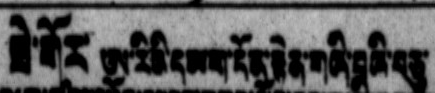ཐེ་གོར ཨ་རིའི་དམག་དོན་རྟེན་གཞི་བའི་བཅུ་
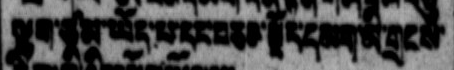ལྷག་ཙམ་ཡོད་པ་དང་བཅའ་སྡོད་དམག་མི་གྲངས་
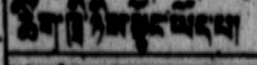ཆིག་ཁྲི་ཉིས་སྟོང་ཡོད་པ།
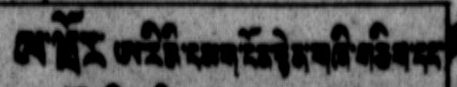ལ་ཝོར ཨ་རིའི་དམག་དོན་རྟེན་གཞི་གཅིག་དང་
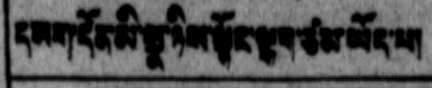དམག་དོན་མི་སྣ་ཉིས་སྟོང་ལྷག་ཙམ་ཡོད་པ།
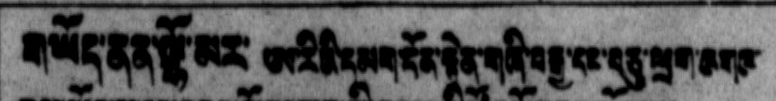གཡོད་ནན་ལྷོ་མར་ ཨ་རིའི་དམག་དོན་རྟེན་གཞི་བརྒྱ་དང་བཅུ་ཕྲག་འགའ་
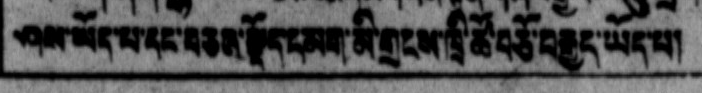ཤས་ཡོད་པ་དང་བཅའ་སྡོད་དམག་མི་གྲངས་ཁྲི་ཚོ་བཅོ་བརྒྱད་ཡོད་པ།
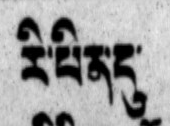རི་པིན་དུ་
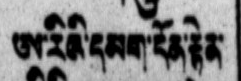ཨ་རིའི་དམག་དོན་རྟེན་
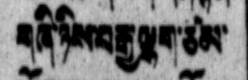གཞི་ཉིས་བརྒྱ་ལྷག་ཙམ་
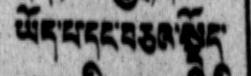ཡོད་པ་དང་བཅའ་སྡོད་
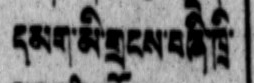དམག་མི་གྲངས་བཞི་ཁྲི་
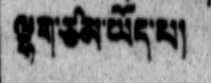ལྷག་ཙམ་ཡོད་པ།
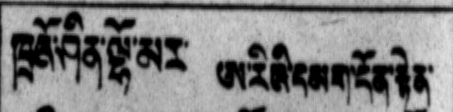ཁྲའོ་ཤིན་ལྷོ་མར་ ཨ་རིའི་དམག་དོན་རྟེན་
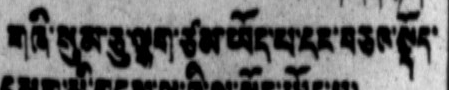གཞི་སུམ་ཅུ་ལྷག་ཙམ་ཡོད་པ་དང་བཅའ་སྡོད་
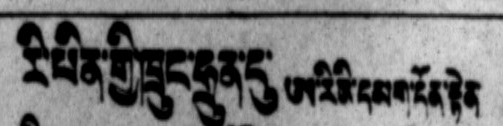རི་པིན་གྱི་ཁྲུང་ཧྲུན་དུ་ ཨ་རིའི་དམག་དོན་རྟེན
